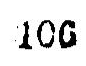106
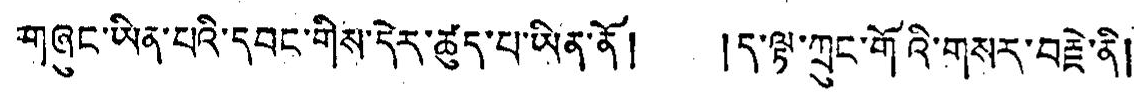གཞུང་ཡིན་པའི་དབང་གིས་དེར་ཚུད་པ་ཡིན་ནོ། །ད་ལྟ་ཀྲུང་གོའི་གསར་བརྗེ་ནི།
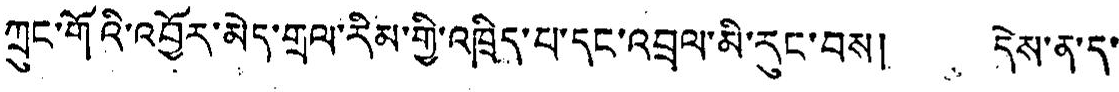ཀྲུང་གོའི་འབྱོར་མེད་གྲལ་རིམ་གྱི་འཁྲིད་པ་དང་འབྲལ་མི་རུང་བས། དེས་ན་ད་
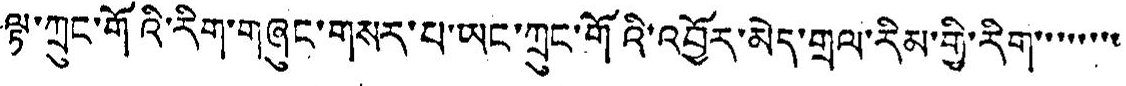ལྟ་ཀྲུང་གོའི་རིག་གཞུང་གསར་པ་ཡང་ཀྲུང་གོའི་འབྱོར་མེད་གྲལ་རིམ་གྱི་རིག་་་་་་་་
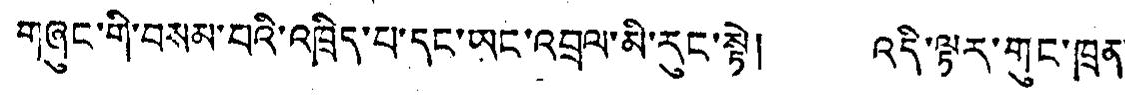གཞུང་གི་བསམ་བའི་འཁྲིད་པ་དང་ཡང་འབྲལ་མི་རུང་སྟེ། འདི་ལྟར་གུང་ཁྲན་
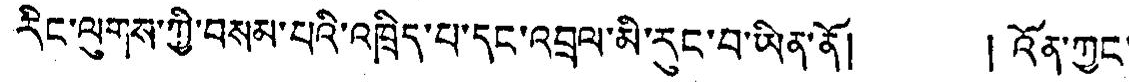རིང་ལུགས་ཀྱི་བསམ་པའི་འཁྲིད་པ་དང་འབྲལ་མི་རུང་བ་ཡིན་ནོ། །འོན་ཀྱང་
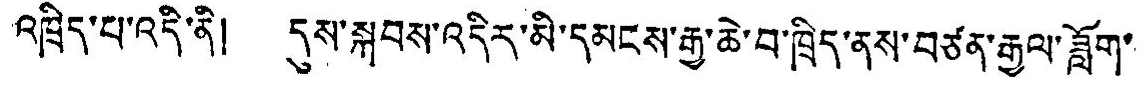འཁྲིད་པ་འདི་ནི། དུས་སྐབས་འདིར་མི་དམངས་རྒྱ་ཆེ་བ་ཁྲིད་ནས་བཙན་རྒྱལ་ཟློབ་
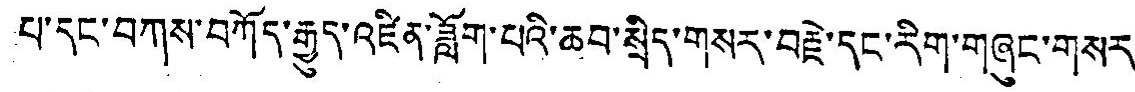པ་དང་བཀས་བཀོད་རྒྱུད་འཛིན་ཟློག་པའི་ཆབ་སྲིད་གསར་བརྗེ་དང་རིག་གཞུང་གསར
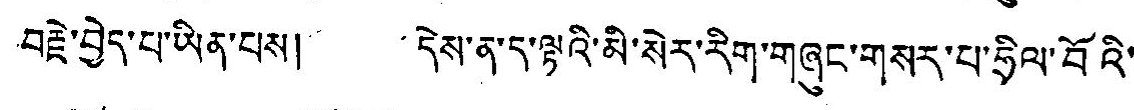བརྗེ་བྱེད་པ་ཡིན་པས། དེས་ན་ད་ལྟའི་མི་སེར་རིག་གཞུང་གསར་པ་ཧྲིལ་བོའི་
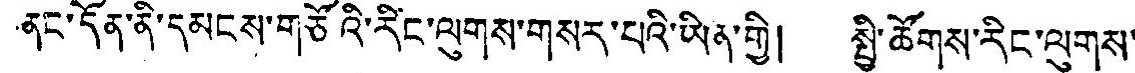ནང་དོན་ནི་དམངས་གཙོའི་རིང་ལུགས་གསར་པའི་ཡིན་གྱི། སྤྱི་ཚོགས་རིང་ལུགས་
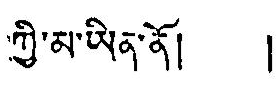ཀྱི་མ་ཡིན་ནོ། །
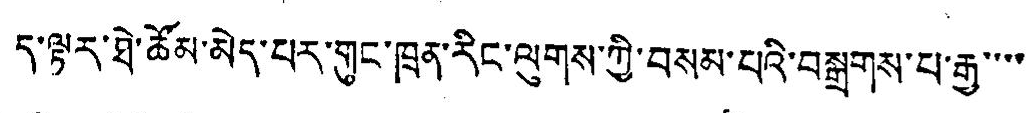ད་ལྟར་ཐེ་ཚོམ་མེད་པར་གུང་ཁྲན་རིང་ལུགས་ཀྱི་བསམ་པའི་བསྒྲགས་པ་རྒྱུ་་་་
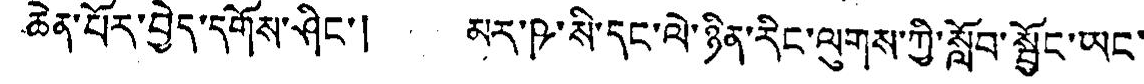ཆེན་པོར་བྱེད་དགོས་ཤིང་། མར་ཥ་སི་དང་ལེ་ཉིན་རིང་ལུགས་ཀྱི་སློབ་སྦྱོང་ཡང་
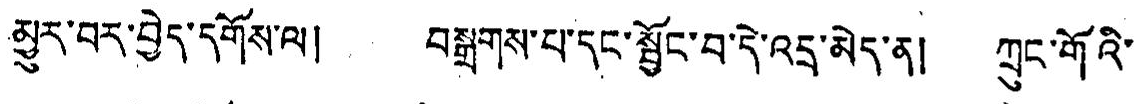མྱུར་བར་བྱེད་དགོས་ལ། བསྒྲགས་པ་དང་སྦྱོང་བ་དེ་འདྲ་མེད་ན། ཀྲུང་གོའི་
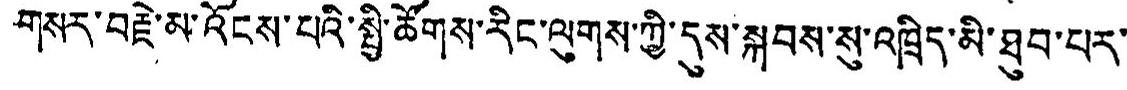གསར་བརྗེ་མ་འོངས་པའི་སྤྱི་ཚོགས་རིང་ལུགས་ཀྱི་དུས་སྐབས་སུ་འཁྲིད་མི་ཐུབ་པར་་
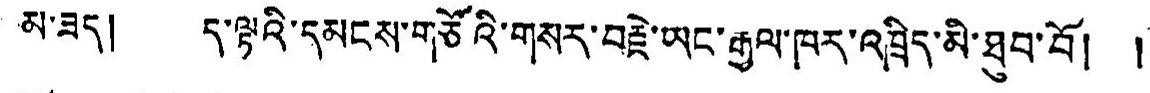མ་ཟད། ད་ལྟའི་དམངས་གཙོའི་གསར་བརྗེ་ཡང་རྒྱལ་ཁར་འཁྲིད་མི་ཐུབ་བོ། །
